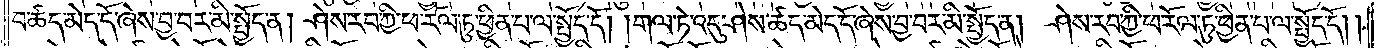བ་ཚད་མེད་དོ་ཞེས་བྱ་བར་མི་སྤྱོད་ན། ཤེས་རབ་ཀྱི་ཕ་རོལ་ཏུ་ཕྱིན་པ་ལ་སྤྱོད་དོ། །གལ་ཏེ་འདུ་ཤེས་ཚད་མེད་དོ་ཞེས་བྱ་བར་མི་སྤྱོད་ན། ཤེས་རབ་ཀྱི་ཕ་རོལ་ཏུ་ཕྱིན་པ་ལ་སྤྱོད་དོ། །
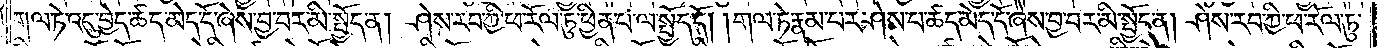གལ་ཏེ་འདུ་བྱེད་ཚད་མེད་དོ་ཞེས་བྱ་བར་མི་སྤྱོད་ན། ཤེས་རབ་ཀྱི་ཕ་རོལ་ཏུ་ཕྱིན་པ་ལ་སྤྱོད་དོ། །གལ་ཏེ་རྣམ་པར་ཤེས་པ་ཚད་མེད་དོ་ཞེས་བྱ་བར་མི་སྤྱོད་ན། ཤེས་རབ་ཀྱི་ཕ་རོལ་ཏུ་
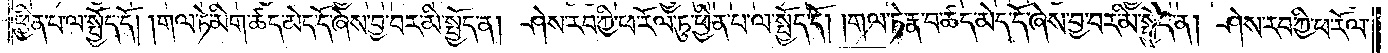ཕྱིན་པ་ལ་སྤྱོད་དོ། །གལ་ཏེ་མིག་ཚད་མེད་དོ་ཞེས་བྱ་བར་མི་སྤྱོད་ན། ཤེས་རབ་ཀྱི་ཕ་རོལ་ཏུ་ཕྱིན་པ་ལ་སྤྱོད་དོ། །གལ་ཏེ་རྣ་བ་ཚད་མེད་དོ་ཞེས་བྱ་བར་མི་སྤྱོད་ན། ཤེས་རབ་ཀྱི་ཕ་རོལ་
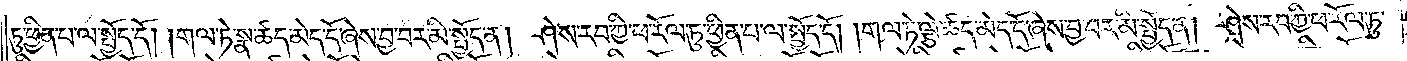ཏུ་ཕྱིན་པ་ལ་སྤྱོད་དོ། །གལ་ཏེ་སྣ་ཚད་མེད་དོ་ཞེས་བྱ་བར་མི་སྤྱོད་ན། ཤེས་རབ་ཀྱི་ཕ་རོལ་ཏུ་ཕྱིན་པ་ལ་སྤྱོད་དོ། །གལ་ཏེ་ལྕེ་ཚད་མེད་དོ་ཞེས་བྱ་བར་མི་སྤྱོད་ན། ཤེས་རབ་ཀྱི་ཕ་རོལ་ཏུ་
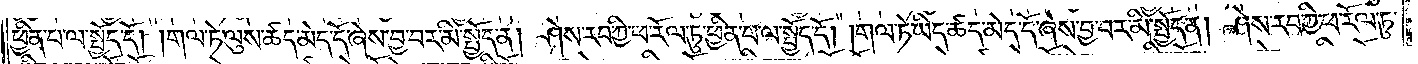ཕྱིན་པ་ལ་སྤྱོད་དོ། །གལ་ཏེ་ལུས་ཚད་མེད་དོ་ཞེས་བྱ་བར་མི་སྤྱོད་ན། ཤེས་རབ་ཀྱི་ཕ་རོལ་ཏུ་ཕྱིན་པ་ལ་སྤྱོད་དོ། །གལ་ཏེ་ཡིད་ཚད་མེད་དོ་ཞེས་བྱ་བར་མི་སྤྱོད་ན། ཤེས་རབ་ཀྱི་ཕ་རོལ་ཏུ་
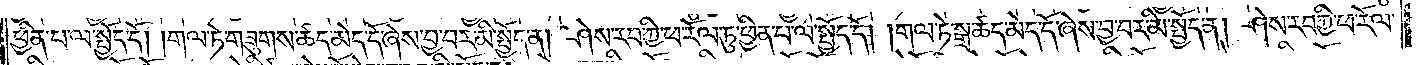ཕྱིན་པ་ལ་སྤྱོད་དོ། །གལ་ཏེ་གཟུགས་ཚད་མེད་དོ་ཞེས་བྱ་བར་མི་སྤྱོད་ན། ཤེས་རབ་ཀྱི་ཕ་རོལ་ཏུ་ཕྱིན་པ་ལ་སྤྱོད་དོ། །གལ་ཏེ་སྒྲ་ཚད་མེད་དོ་ཞེས་བྱ་བར་མི་སྤྱོད་ན། ཤེས་རབ་ཀྱི་ཕ་རོལ་
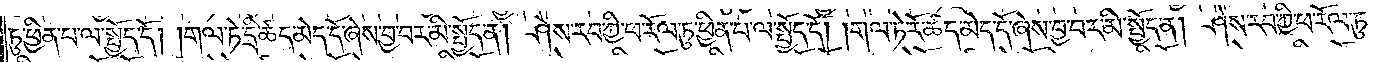ཏུ་ཕྱིན་པ་ལ་སྤྱོད་དོ། །གལ་ཏེ་དྲི་ཚད་མེད་དོ་ཞེས་བྱ་བར་མི་སྤྱོད་ན། ཤེས་རབ་ཀྱི་ཕ་རོལ་ཏུ་ཕྱིན་པ་ལ་སྤྱོད་དོ། །གལ་ཏེ་རོ་ཚད་མེད་དོ་ཞེས་བྱ་བར་མི་སྤྱོད་ན། ཤེས་རབ་ཀྱི་ཕ་རོལ་ཏུ་
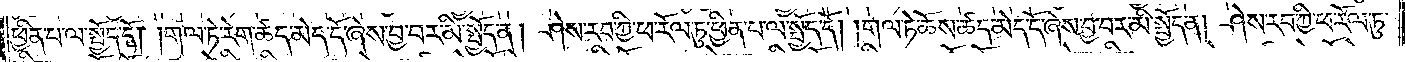ཕྱིན་པ་ལ་སྤྱོད་དོ། །གལ་ཏེ་རེག་ཚད་མེད་དོ་ཞེས་བྱ་བར་མི་སྤྱོད་ན། ཤེས་རབ་ཀྱི་ཕ་རོལ་ཏུ་ཕྱིན་པ་ལ་སྤྱོད་དོ། །གལ་ཏེ་ཆོས་ཚད་མེད་དོ་ཞེས་བྱ་བར་མི་སྤྱོད་ན། ཤེས་རབ་ཀྱི་ཕ་རོལ་ཏུ་
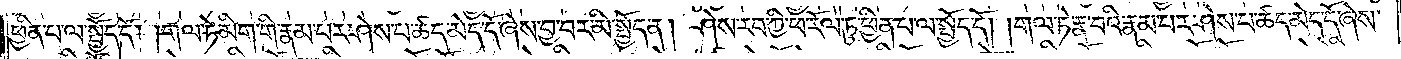ཕྱིན་པ་ལ་སྤྱོད་དོ། །གལ་ཏེ་མིག་གི་རྣམ་པར་ཤེས་པ་ཚད་མེད་དོ་ཞེས་བྱ་བར་མི་སྤྱོད་ན། ཤེས་རབ་ཀྱི་ཕ་རོལ་ཏུ་ཕྱིན་པ་ལ་སྤྱོད་དོ། །གལ་ཏེ་རྣ་བའི་རྣམ་པར་ཤེས་པ་ཚད་མེད་དོ་ཞེས་
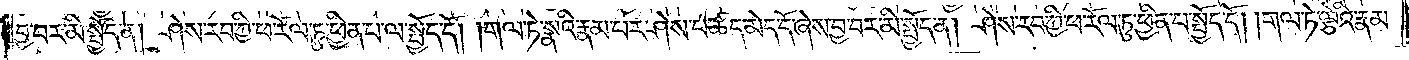བྱ་བར་མི་སྤྱོད་ན། ཤེས་རབ་ཀྱི་ཕ་རོལ་ཏུ་ཕྱིན་པ་ལ་སྤྱོད་དོ། །གལ་ཏེ་སྣའི་རྣམ་པར་ཤེས་པ་ཚད་མེད་དོ་ཞེས་བྱ་བར་མི་སྤྱོད་ན། ཤེས་རབ་ཀྱི་ཕ་རོལ་ཏུ་ཕྱིན་པ་ལ་སྤྱོད་དོ། །གལ་ཏེ་ལྕེའི་རྣམ་
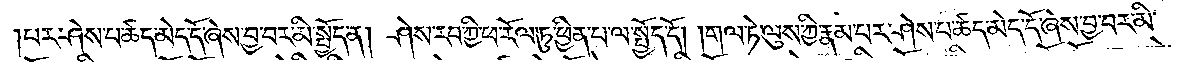པར་ཤེས་པ་ཚད་མེད་དོ་ཞེས་བྱ་བར་མི་སྤྱོད་ན། ཤེས་རབ་ཀྱི་ཕ་རོལ་ཏུ་ཕྱིན་པ་ལ་སྤྱོད་དོ། །གལ་ཏེ་ལུས་ཀྱི་རྣམ་པར་ཤེས་པ་ཚད་མེད་དོ་ཞེས་བྱ་བར་མི་
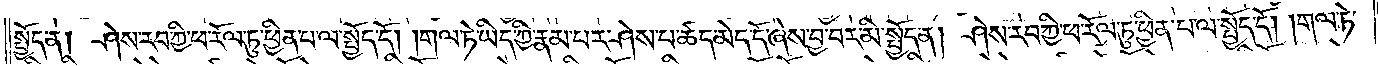སྤྱོད་ན། ཤེས་རབ་ཀྱི་ཕ་རོལ་ཏུ་ཕྱིན་པ་ལ་སྤྱོད་དོ། །གལ་ཏེ་ཡིད་ཀྱི་རྣམ་པར་ཤེས་པ་ཚད་མེད་དོ་ཞེས་བྱ་བར་མི་སྤྱོད་ན། ཤེས་རབ་ཀྱི་ཕ་རོལ་ཏུ་ཕྱིན་པ་ལ་སྤྱོད་དོ། །གལ་ཏེ་
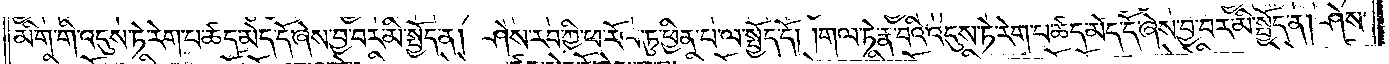མིག་གི་འདུས་ཏེ་རེག་པ་ཚད་མེད་དོ་ཞེས་བྱ་བར་མི་སྤྱོད་ན། ཤེས་རབ་ཀྱི་ཕ་རོལ་ཏུ་ཕྱིན་པ་ལ་སྤྱོད་དོ། །གལ་ཏེ་རྣ་བའི་འདུས་ཏེ་རེག་པ་ཚད་མེད་དོ་ཞེས་བྱ་བར་མི་སྤྱོད་ན། ཤེས་
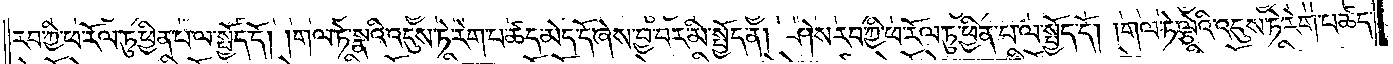རབ་ཀྱི་ཕ་རོལ་ཏུ་ཕྱིན་པ་ལ་སྤྱོད་དོ། །གལ་ཏེ་སྣའི་འདུས་ཏེ་རེག་པ་ཚད་མེད་དོ་ཞེས་བྱ་བར་མི་སྤྱོད་ན། ཤེས་རབ་ཀྱི་ཕ་རོལ་ཏུ་ཕྱིན་པ་ལ་སྤྱོད་དོ། །གལ་ཏེ་ལྕེའི་འདུས་ཏེ་རེག་པ་ཚད་
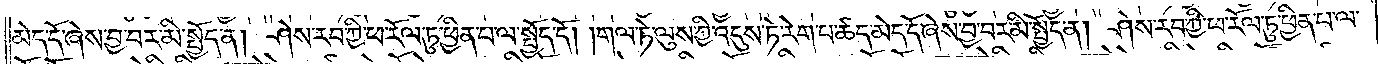མེད་དོ་ཞེས་བྱ་བར་མི་སྤྱོད་ན། ཤེས་རབ་ཀྱི་ཕ་རོལ་ཏུ་ཕྱིན་པ་ལ་སྤྱོད་དོ། །གལ་ཏེ་ལུས་ཀྱི་འདུས་ཏེ་རེག་པ་ཚད་མེད་དོ་ཞེས་བྱ་བར་མི་སྤྱོད་ན། ཤེས་རབ་ཀྱི་ཕ་རོལ་ཏུ་ཕྱིན་པ་ལ་
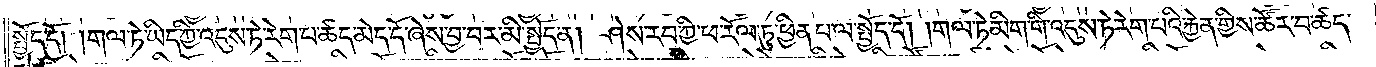སྤྱོད་དོ། །གལ་ཏེ་ཡིད་ཀྱི་འདུས་ཏེ་རེག་པ་ཚད་མེད་དོ་ཞེས་བྱ་བར་མི་སྤྱོད་ན། ཤེས་རབ་ཀྱི་ཕ་རོལ་ཏུ་ཕྱིན་པ་ལ་སྤྱོད་དོ། །གལ་ཏེ་མིག་གི་འདུས་ཏེ་རེག་པའི་རྐྱེན་གྱིས་ཚོར་བ་ཚད་
